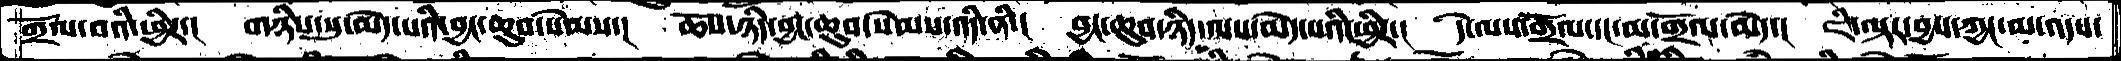གྲོལ་བའི་ཕྱིར་།  གཉིས་སུ་མེད་པའི་བྱང་ཆུབ་སེམས་།  ཆོས་ཉིད་བྱང་ཆུབ་སེམས་འདི་ནི་།  བྱང་ཆུབ་ཉིད་ལས་མེད་པའི་ཕྱིར་།  དེ་ལས་གྲོལ་དང་མ་གྲོལ་མེད་།  ཇི་ལྟར་བྱས་ཀྱང་མ་འདས་
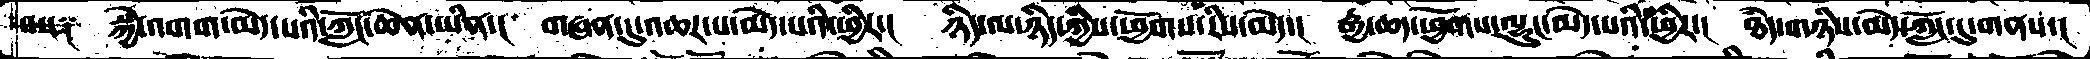བས༑ སྐྱེ་འགག་མེད་པའི་ཀློང་ཆེན་ཡིན་། གཞན་དུ་འཆཌ་པ་མེད་པའི་ཕྱིར་། ཉིད་ལ་ཉིད་ཀྱི་ཕྱོགས་རིས་མེད་། རྒྱ་ཆད་ཕྱོགས་ལྷུང་མེད་པའི་ཕྱིར་། ཐཾད་གཉིས་མེད་ཀློང་དུ་གནས་།
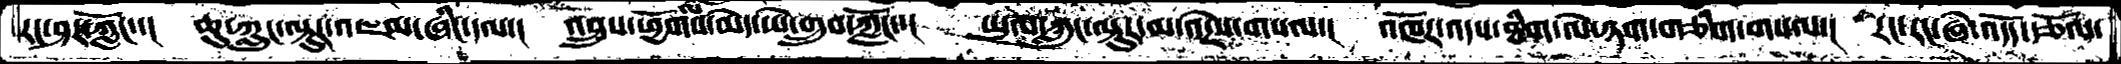རང་ཤར་ཀློང་་།  ཆུ་ཀླུང་ལྟུར་འཇམ་ཞིང་དལ་།  འབྲུས་ཕྱོགས་མེད་ཡེ་གྲུབ་ཀློང་་།  ཡུལ་ཀླུང་ལྟུར་མ་འདྲེས་གསལ་།  འཁོར་འདས་ཐིག་ལེ་ཉག་གཅིག་གསལ་།  རང་རང་ཞེ་འདོད་རྩོལ་
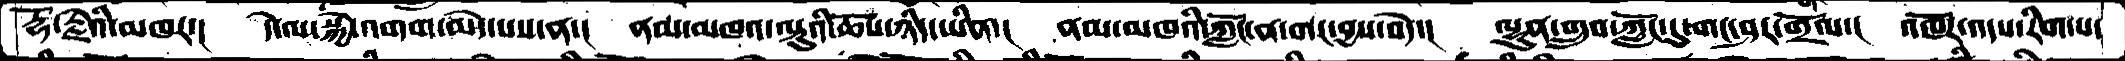རྡོ་རྗེའི་མཁར་།  དེ་ལ་སྐྱེ་འགག་མེད་པས་ན་།  ནམ་མཁའ་ལྟུའི་ཆོས་ཉིད་ཡིན་།  ནམ་མཁའི་ཀློང་ན་གང་བྱས་བདེ་།  ལྷུན་གྲུབ་ཀློང་དུ་གང་ཤར་གྲོལ་།  འཁོར་འདས་རིག་པ་
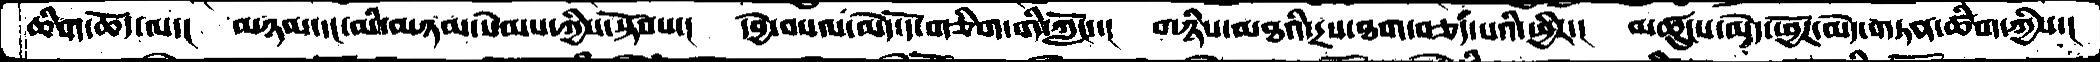ཆིག་ཆོད་ལ་།  མཉམ་དང་མི་མཉམ་སེམས་ཀྱིས་སྟོབས་།  དབྱེ་བསལ་མེད་དོ་གཅིག་གི་ཀློང་་།  གཉིས་མཐའི་དྲས་ཐག་བཅད་པའི་ཕྱིར་།  མཚུངས་མེད་ཕྱོཌ་མེད་གཏན་ཚིག་ཀྱིས་།
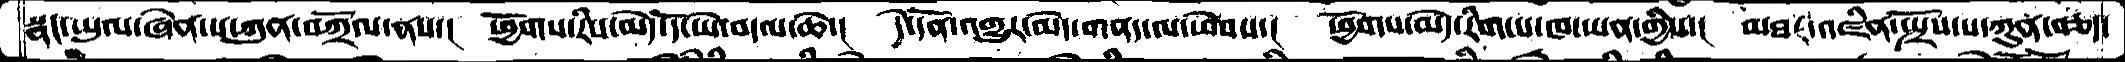སྣང་ཡུལ་ཞེན་པ་ཀུན་བཀྲོལ་ནས་།  ཕྱོགས་རིས་མེད་དོ་ཡེ་བདལ་ཆེ་།  དེ་དོན་འགྱུར་མེད་གནད་ལ་ཕེབས་།  ཕྱོགས་མེད་རིག་པ་ཁ་ཡན་གྱིས་།  མཐར་འཛིན་སྤྲོས་པ་ཀུན་བཅད་
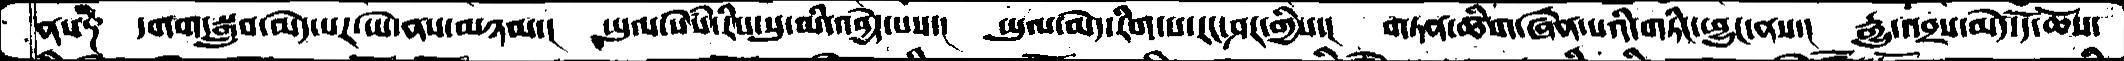ནས༑  དགག་སྒྲུབ་མེད་པར་ཡེ་ནས་མཉམ་།  ཡུལ་སེཾས་རིས་སུ་མི་འབྱེད་པས་།  ཡུལ་མེད་རིག་པ་རང་ཤར་གྱིས་།  གཏན་ཚིག་ཞེན་པའི་གཏིང་ཕྱུང་ནས་།  རྒྱུ་འབྲས་མེད་དོ་ཆོས་
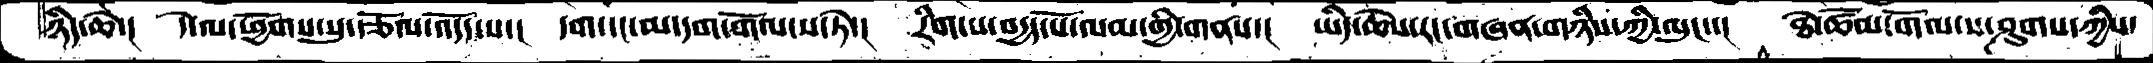ཉིད་ཆེ་།  དེ་ལ་ཕྱོགས་སུ་རྩོལ་འདོད་པ་།  དག་དང་མ་དག་གོལ་ས་ཏེ་།  རིག་པ་བདྱད་པོ་ལམ་གྱི་གནས་།  ཡིད་ཆེས་རང་གཞན་གཉིས་ཀྱི་ལུང་་།  ཐེ་ཚོམ་གོལ་ས་ཤུགས་ཀྱིས་
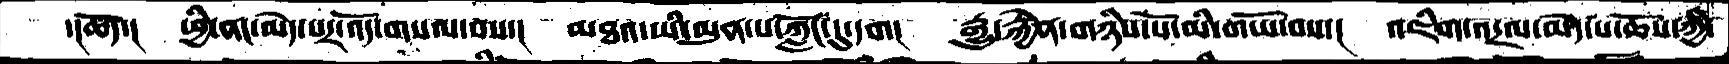་།ཆོད་། ཕྱི་ནང་མེད་པར་འོད་གསལ་བས་། མཐའ་ཡི་མུན་པ་ཀློང་དུ་དག། རྒྱུ་རྐྱེན་གཉིས་པོ་མི་གཡོ་བས་། འཇིག་འདྲལ་མེད་པ་ཆོས་ཀྱི་
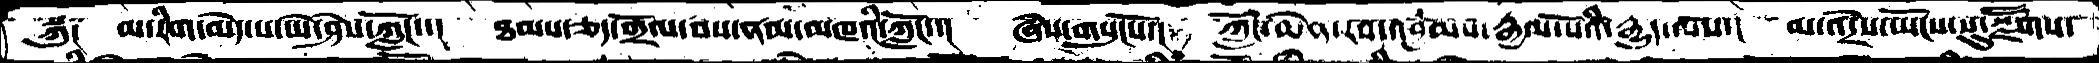སྐུ༑  མ་རིག་མེད་པ་ཡེ་ཤེས་ཀློང་་།  ཐམས་ཅད་གྲོལ་བས་ནམ་མཁའི་ཀློང་་།  ཞེས་གསུངསོ་།  ཀློང་ཆེན་རབ་འབྱམས་རྒྱལ་པོའི་རྒྱུད་ལས་།  མ་འདྲེས་ཡོངས་སུ་སྫོགས་
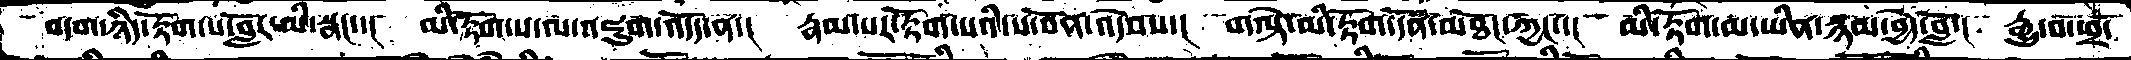བདག་ཉིད་རྟོག་པ་བློར་མི་སྣང་་།  མི་རྟོག་པ་ལ་འཇུག་འདོད་ན་།  རྣམ་པར་རྟོག་པའི་ས་བོན་འདེབས་།  གལྟེ་མི་རྟོག་དོན་མཐོང་ཀྱང་་།  མི་རྟོག་མ་ཡིན་སྙམ་བྱེད་བློ་།  རྒྱུ་བ་ཕྲ་
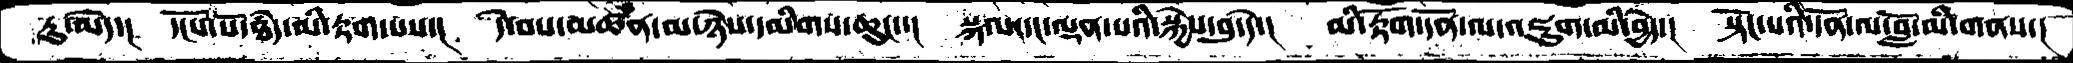ཏུ་མེད་།  དངོས་པོ་ཐཾད་མི་རྟག་པས་།  དེ་བས་མཚན་མ་ཉེས་དམིགས་ཆུང་་།  སྐལ་དང་ལྡན་པའི་སྐྱེས་བུ་དེ་།  མི་རྟོག་དོན་ལ་འཇུག་མི་བྱེད་།  སྟོང་པའི་དོན་ལ་བློ་མི་གནས་།
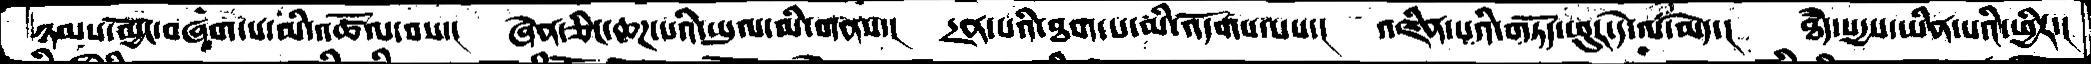ཉམས་མྱོང་བཞག་པ་མི་འཚོལ་བས་།  ཞེན་ཅིང་ཆཌ་པའི་ཡུལ་མི་གནས་།  དྲན་པའི་ཐག་པ་མི་འདོགས་པས་།  འཛིན་པའི་གཏོད་ཕུར་དེ་ལ་མེད་།  ཐཾད་སདྱས་ཡིན་པའི་ཕྱིར་།
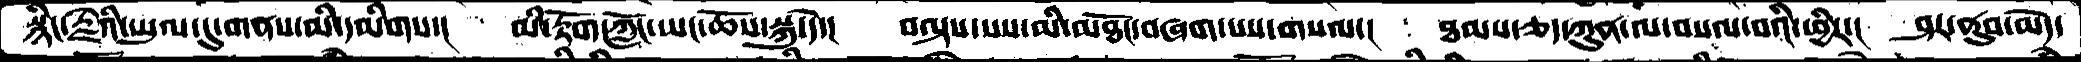སྙིང་རྫེའི་ཡུལ་དུ་གནས་མི་དམིགས་།    མི་རྟོག་ཀློང་ཡང་ཆོས་སྐུ་དེ་།   བལྟས་པས་མི་མཐོང་བཞག་པས་གསལ་།   ཐམས་ཅད་ཀུན་ལ་བསལ་བའི་ཕྱིར་།   ཤར་ནུབ་མེད་
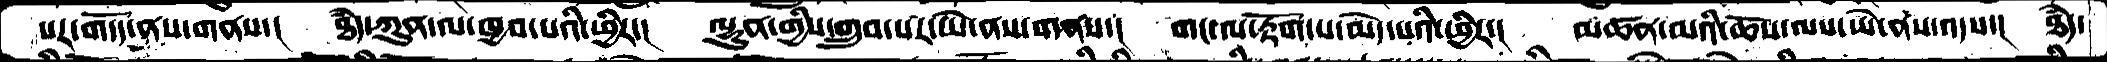པར་གདོད་ནས་གནས་།   ཐཾད་ཀུན་ལ་ཁྱབ་པའི་ཕྱིར་།   ལྷུན་གྱིས་གྲུབ་པར་ཡེ་ནས་གནས་།  གང་ལ་རྟོག་པ་མེད་པའི་ཕྱིར་།   མཚན་མའི་ཆོས་ལས་ཡེ་ནས་འདས་།  ཐཾད་
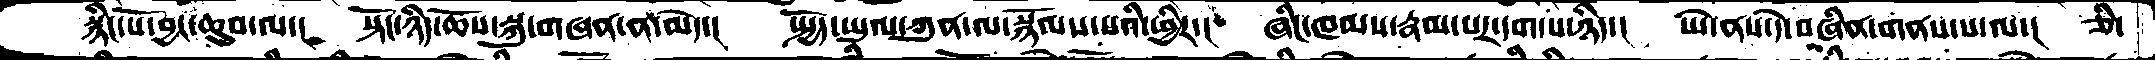སྙིང་པོ་བྱང་ཆུབ་ལ་།   སྟོང་ཉིད་ཆོས་སྐུ་གཞན་ན་མེད་།   སྤྱོད་ཡུལ་ཀུན་ལ་སྙོམས་པའི་ཕྱིར་།    ཞིང་ཁམས་རྣམ་པར་དག་པ་ཉིད་།   ཡེ་ནས་དེ་བཞིན་གནས་པ་ལ་།   ཅི་
